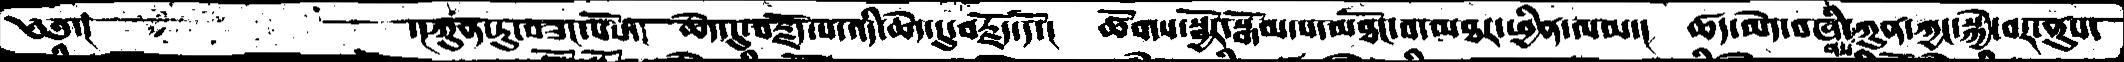༄༅་།      ་།ཀུན་ཏུ་བཟང་པོས་།  ཆེད་དུ་བརྗོད་པ་འདི་ཆེད་དུ་བརྗོད་དོ་།  ཚོགས་སྦྱོར་སྒོམ་པ་མཐོང་བ་མཐར་ཕྱིན་ལམ་།  ཚད་མེད་བཞི་ནས་ཀུན་ཀྱང་སྐྱེ་བར་ནུས་
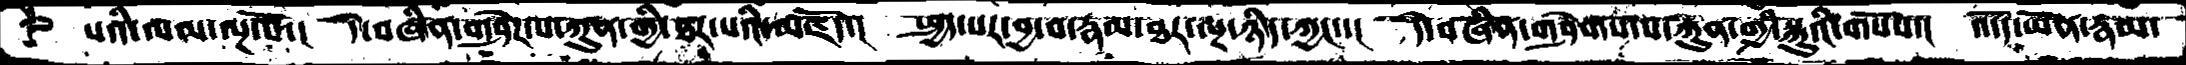པའི་ལམ་ལྔ་པོ་།  དེ་བཞིན་གཤེཌ་པ་ཀུནགྱི་ཐར་པའི་མཛོད་།  སྤྱད་པར་བྱ་བ་རྣམ་ཐར་ལྔ་ཉིད་ཀྱང་་།  དེ་བཞིན་གཤེགས་པ་ཀུན་གྱི་སྐུའི་གསོས་།  འདོད་ཡོན་རྣམ་
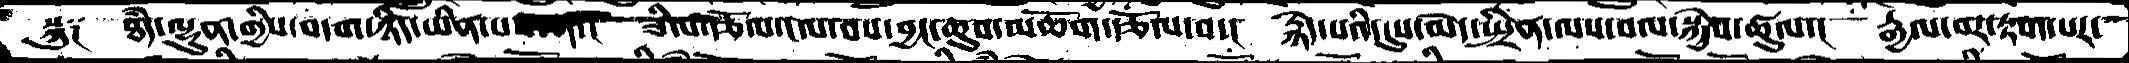སྐུ༑  ཐཾད་ལྷུན་གྱིས་བདག་ཉིད་ཡིན་པ་བདག་།   ཟིལ་རྩོལ་ངལ་བས་བྱང་ཆུབ་མཆོག་རྩོལ་བ་།  རྙེད་པའི་དུས་མེད་སྤྲིན་ལས་བལ་སྐྱེས་ཚུལ་།  རྒྱལ་བར་རྟག་པར་
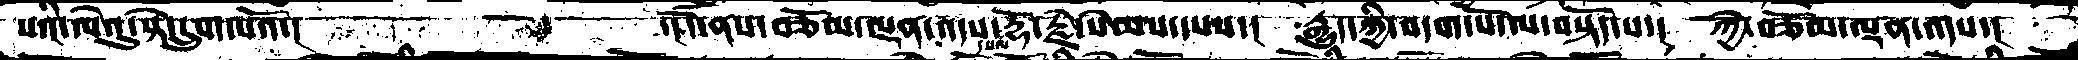པའི་ལེའུ་སྟེ་དྲུག་པའོ་།           ་།དེ་ནས་བཅོམ་ལྡན་འདས་དཔལ་རྡོ་རྗེ་སེམས་དཔས་།  རྒྱུད་ཀྱི་བདག་པོ་ལ་བསྟོད་པ་།  ཀྱེ་བཅོམ་ལྡན་འདས་།
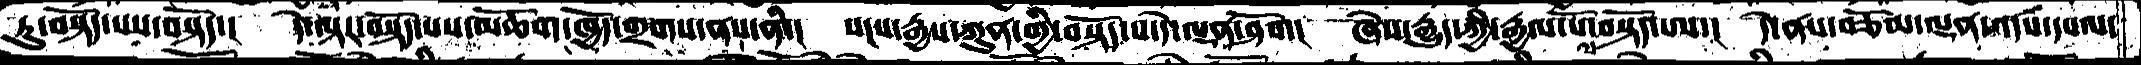ཏུ་བསྟོད་པས་བསྟོད་།  དེ་ལྟར་བསྟོད་པས་མཆོག་ཁྱོད་གྲགས་ནས་ནི་།  སངས་རྒྱས་ཀུན་གྱི་བསྟོད་པ་དེ་ལྡན་ཤོག།  ཞེས་རྒྱུད་ཀྱི་རྒྱལ་པོ་ལ་བསྟོད་པས་།  དེ་ནས་བཅོམ་ལྡན་འདས་དཔལ་
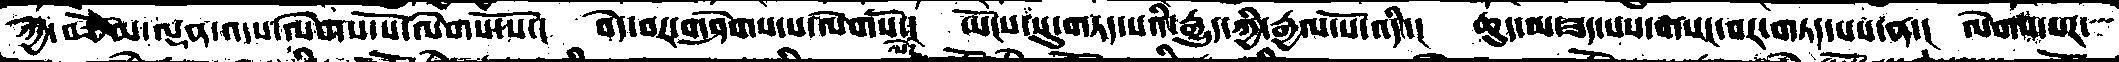ཀྱེ་བཅོམ་ལྡན་འདས་ལེགས་སོ་ལེགས་སོ་།  བདེ་བར་གཤེགས་པ་ལེགསོ་ལེཌ།  ཡོངས་སུ་གཏད་པའི་རྒྱུད་ཀྱི་རྒྱལ་པོ་འདི་།  ཆུད་མ་ཟད་པས་གསང་བར་གཏད་པས་ན་།  ལེགས་པར་
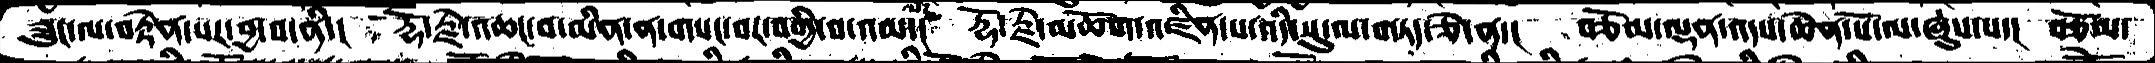ཟུང་ལ་བརྟེན་པར་བྱ་བ་ནི་།  རྡོ་རྗེ་འཆང་བ་མིན་ན་གསང་བར་བགྱི་བ་འམ་།  རྡོ་རྗེ་མཆོག་འཛིན་པ་འདི་སུ་ལ་གཏད་ཅེ་ན་།  བཅོམ་ལྡན་འདས་ཆེན་པོ་ལ་ཞུས་པ་།  བཅོམ་
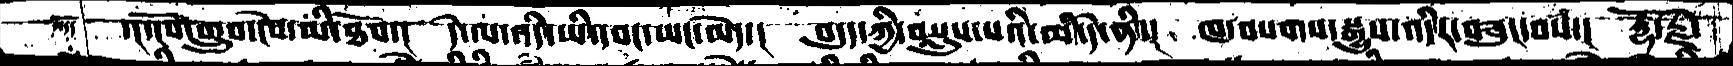འདོད  ་།དངོས་གྲུབ་ངེས་མི་ཐོབ་།  དེ་ལ་འདི་ཡི་དབང་ཡང་མེད་།  བདུད་ཀྱི་བསླུས་པའི་མི་དེ་ནི་།  ཁ་བསགས་སྒྱུས་འདིར་བཟུང་བས་། རྡོ་རྗེ་
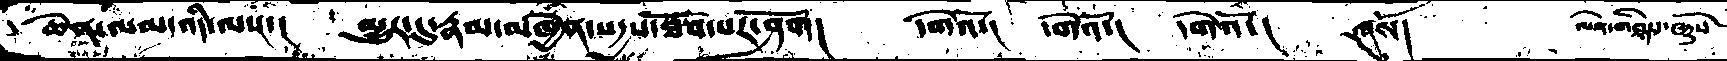ཆེན་ལམ་འདི་ལས་།   མྱུར་དུ་རྣམ་མཁྱེན་སདྱས་ཐོབ་པར་ཤོག།    དགེའོ་།   དགེའོ་།   དགེའོ་།   ཞུསོ།   ལེན་གཉིས་ཞུསོ
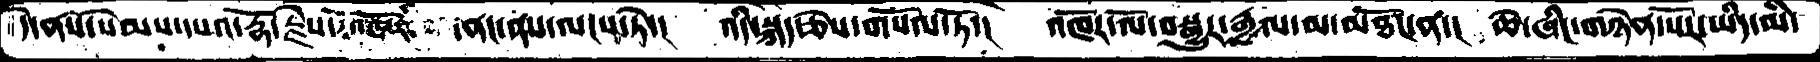དེ་ནས་སེམས་དཔའ་རྡོ་རྗེས་འཁོར་ནང་ནས་ལངས་ཏེ་།   འདི་སྐད་ཅེས་གསོལ་ཏོ་།  འཁོར་ལོ་བསྒྱུར་རྒྱལ་མ་མཐོང་ན་།  ཆེ་ཞིང་གཉེན་པོར་ཡིད་མི་
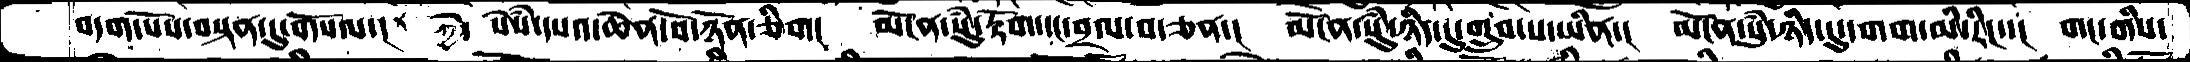བདག་པོས་བསྟན་དུ་གསོལ་།  ཀྱེ་ སེཾས་དཔའ་ཆེན་པོ་ཉོན་ཅིག། མངོན་སུཾ་རྟོག་དང་བྲལ་བ་ཅན་།  མངོན་སུཾ་ཉིད་དུ་གྲུབ་པ་ཡིན་།  མངོན་སུཾ་ཉིད་དུ་དགག་མི་རིང་་།  གང་གིས་
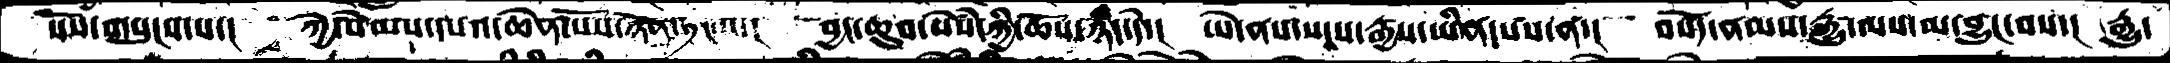པོས་གསུངས་པ་།  ཀྱེ་སེམས་དཔའ་ཆེན་པོས་ཉོན་༡་ལ།  བྱང་ཆུབ་སེཾས་ཀྱི་ཆོས་ཉིད་དེ་། ཡེ་ནས་སངས་རྒྱས་ཡིན་པས་ན་།  བསོད་ནམས་རྒྱུ་ལས་མ་བྱུང་བས་།  རྒྱུ་
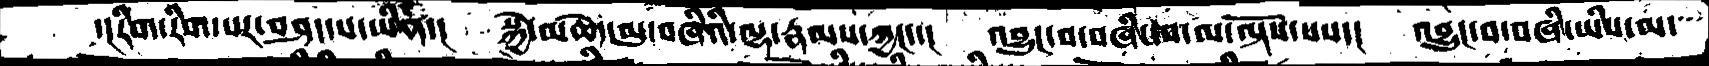་།རིག་རིག་པར་བཤད་པ་ཡིན་།  སྐྱེ་མཆེད་མུ་བཞིའི་ལྷ་རྣམས་ཀྱང་་།  འབྱུང་བ་བཞི་ལ་ལ་ལྟོས་པས་།  འབྱུང་བ་བཞི་ཡིས་མ་་་
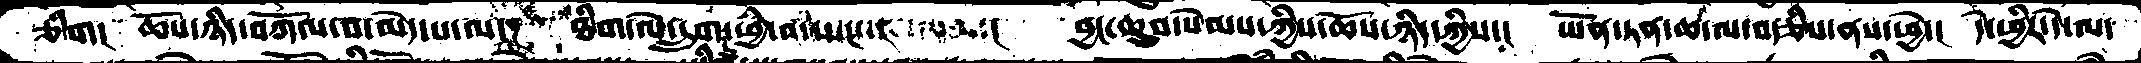ཅིག།  ཆོས་ཉིད་བཀོལ་བ་མེད་པ་ལ།  ཐིག་ལེ་དྲུག་དུ་ཕྱི་ན་ཡང་་།  བྱང་ཆུབ་སེམས་ཀྱིས་ཆོས་ཉིད་ཀྱིས་། ཡོན་ཏན་ཆ་ལ་བརྩིས་ནས་ཕྱེ་།  དེ་ཕྱིར་དེ་ལ་
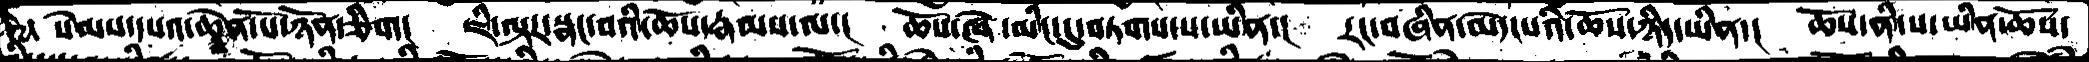ཀྱི། སེམས་དཔའ་ཆེན་པོ་ཉོན་ཅིག།  ཇི་ལྟར་སྣང་བའི་ཆོས་རྣམས་ལ་།  ཆོས་ཞེ་མིང་དུ་བཏགས་པ་ཡིན་། རང་བཞིན་མེད་པའི་ཆོས་ཉིད་ཡིན་།  ཆོས་ནི་ས་ཡིན་ཆོས་
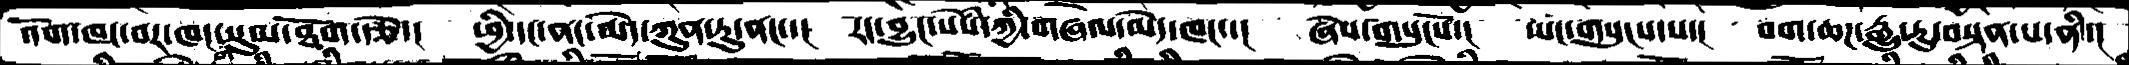འོག་ཁང་བར་ཁང་གི་གསུམ་ཐོག་རྩེ་།  ཕྱི་དང་ནང་མེད་ཀུན་ཏུ་ནང་་།  རང་བྱུང་སེཾས་ཀྱི་གཞལ་མེད་ཁང་་།  ཞེས་གསུངསོ་།  ཡང་གསུངས་པ་།  བག་ཆཌ་རྒྱུ་རུ་བསྟན་པ་ནི་།
